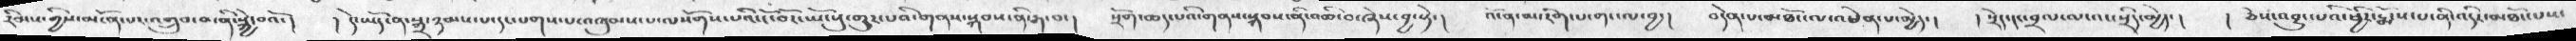རིམས་གྱིས་མངོན་པར་འགྲུབ་པ་ནི་སྐྱེ་བའོ་།  ། དེ་ཡོད་ན་སྒྲ་ཉམས་པ་དང་པགས་པ་འཁུམས་པ་ལསོགས་པའི་ངོ་བོར་ཡོངསུ་གྱུར་པའི་གནས་སྐབས་ནི་རྒ་བ་།   སྲོག་ཆད་པའི་གནས་སྐབས་ནི་འཆི་བ་ཞེས་བྱ་སྟེ་།   འོ་ན་མ་རིག་པ་གང་ལ་བྱ་།   བདེན་པ་མཐོང་ལ་འཕེན་པ་མྱེད་།   ། སྲིད་དང་བྲལ་ལ་འང་སྲིད་མྱེད་།   ཅེས་འབྱུང་པའི་ཕྱིར་སྨོས་པ་ནི་འདིར་མཐོང་པས་
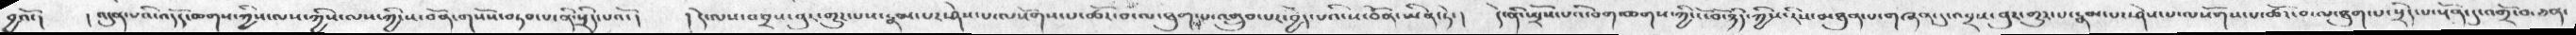བྱའོ་།   ། འདུན་པའི་འདོད་ཆགས་ཀྱིས་ལས་ཀྱིས་ལས་ཀྱི་ས་བོན་གསོས་བཏབ་པ་ནི་སྲིད་པའོ་།  ། དེ་ལས་འབྲས་བུར་གྱུར་པས་རྣམ་པར་ཤེས་པ་ལསོགས་པ་ལསོགས་པ་ཚོར་བ་ལ་ཐུགས་པ་འགྲུབ་པར་བྱེད་པའི་ས་བོན་ཡིན་ཏེ་།   དེ་ནི་ཡྲོས་པའི་པག་ཆགས་ཀྱིས་ངོ་བོ་ཉིད་ཀྱིས་རིས་མཉན་པ་གཞན་དུ་འབྲས་བུར་གྱུར་པ་རྣམ་པར་ཤེས་པ་ལསོགས་པ་ཚོར་བ་ལ་ཐུག་པ་སྲིད་པ་སྔོན་དུ་འགྲོ་བ་ཅན་
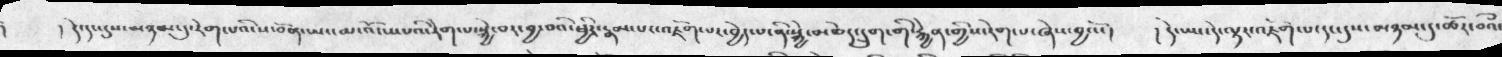།   དེ་དང་དུས་མཉམ་དུ་རེག་པའི་ས་བོན་ཡང་མ་འོངས་པའི་རེག་པ་སྐྱེ་བར་བྱ་བའི་ཕྱིར་རྣམ་པར་འཇོག་པར་བྱེད་པ་ནི་སྐྱེ་མཆེད་དྲུག་གི་རྐྱེན་གྱིས་རེག་པ་ཞེས་བྱའོ་།   ། དེ་ཡང་དེ་ལྟར་འཇིག་པ་དང་དུས་མཉམ་དུ་ཚོར་བའི་
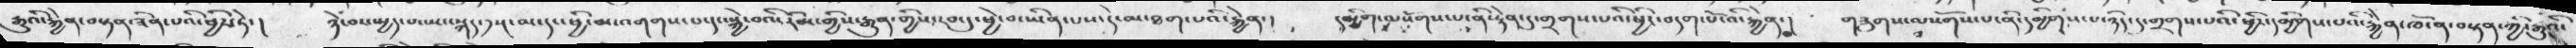རྒྱུའི་སྐྱེན་བསྟན་ཟིན་པའི་ཕྱིར་ཏེ་།   ཉེ་བར་མྱད་པ་ཡང་སྐད་༡སྔ་མ་དང་ཕྱི་མ་འགགས་པ་དང་སྐྱེ་བའི་གོ་རིམ་གྱིས་རྒྱུན་གྱིས་རབ་དུ་ཕྱེ་བ་ཡིན་པས་དེ་མ་ཐག་པའི་རྐྱེན་།  དམྱིག་ལསོགས་པ་ནི་རྟེན་དུ་གྲགས་པའི་ཕྱིར་བདག་པོ་འི་རྐྱེན་།  གཟུགས་ལསོགས་པ་ནི་དམྱིགས་པ་ཉིད་དུ་གྲགས་པའི་ཕྱིར་དམྱིགས་པའི་རྐྱེན་ཁོ་ན་བསྟན་ཀྱི་རྒྱུའི་
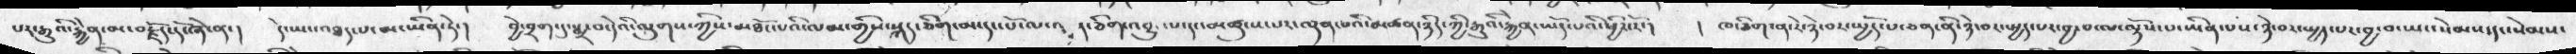པར་རྒྱུའི་རྐྱེན་མ་བརྗོད་དོ་ཞེ་ན་།   དེ་ཡང་འཐད་པ་མ་ཡིན་ཏེ་།   བྱེ་བྲག་དུ་སྨྲ་བ་དེའི་ལུགས་ཀྱིས་མཐོང་པའི་ལམ་གྱིས་སྐད་ཅིག་མ་དང་པོ་ལ་ནར་ཅིག་འབྱུང་པ་དང་མཚུངས་པར་ལྡན་པའི་མཚན་ཉིད་ཀྱི་རྒྱུའི་རྐྱེན་ཡོད་པའི་ཕྱིར་རོ་།   ། ཁ་ཅིག་ན་རེ་ཉེ་བར་ཡྱོད་པ་ཅན་ནི་ཉེ་བར་ཡྱད་པར་བྱ་བ་ལ་ལྟོས་པ་ཡིན་པས་ཉེ་བར་ཡྱད་པར་བྱ་བ་ཡང་སེམས་དང་སེམས་
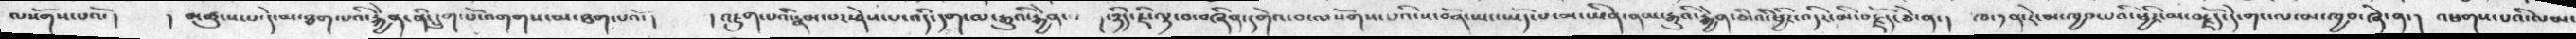ལསོགས་པའོ་།   །  མཚུངས་པ་དེ་མ་ཐག་པའི་རྐྱེན་ནི་དྲུག་པོ་འགགས་མ་ཐག་པའོ་།   ། འཇུག་པའི་རྣམ་པར་ཤེས་པ་འདི་དག་ལ་རྒྱུའི་རྐྱེན་།  ཉིད་ཇི་ལྟ་བ་བཞིན་དགེའ་བ་ལསོགས་པའི་ས་བོན་ཡང་ཡོད་པ་མ་ཡིན་ནམ་རྒྱུའི་རྐྱེན་ཅི་འི་ཕྱིར་འདིར་མི་བརྗོད་ཅེ་ན་།   ཁ་༡་ན་རེ་མ་ཁྱབ་པའི་ཕྱིར་མ་བརྗོད་དེ་གང་ལ་མ་ཁྱབ་ཞེ་ན་།  འཕགས་པའི་ལམ་
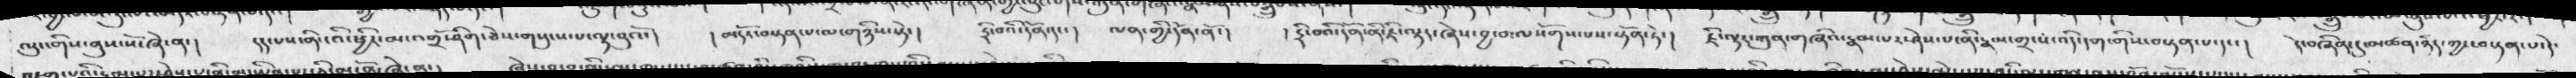ལུང་གིས་ནུས་སོ་ཞེ་ན་།   དད་པས་ནི་ངའི་ཕྱིར་མ་འགྲོ་ཤིག་ཅེས་གསུངས་པ་ལྟ་བུའོ་།   ། མདོར་བསྟན་པ་ལ་གཉིས་སྟེ་།   དྲི་བའི་དོན་དང་།   ལན་གྱི་དོན་ནོ་།   ། དྲི་བའི་དོན་ནི་ཇི་ལྟར་ཞེས་བྱ་བ་ལསོགས་པས་སྟོན་ཏེ་།   ཇི་ལྟར་ཀུན་གཞིའ་རྣམ་པར་ཤེས་པ་ནི་རྣམ་གྲངས་འདི་དག་གིས་བསྟན་པ་དང་།   དེ་བཞིན་དུ་མཚན་ཉིད་ཀྱང་བསྟན་པ་དེ་
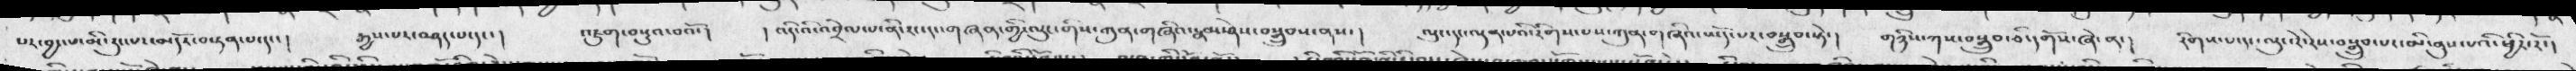པར་བྱ་པ་མི་རུང་པ་མདོར་བསྟན་པ་དང་།   རྒྱས་པར་བཤད་པ་དང་།    འཇུག་བསྡུའ་བའོ་།   །  འདི་འི་འབྲེལ་པ་ནི་རང་དང་གཞན་གྱི་ལུང་གིས་ཀུན་གཞིའ་རྣམ་ཤེས་བསྒྲུབ་ནས་།   ལུང་དང་ལྡན་པའི་རིགས་པས་ཀུན་གཞིའ་ཡོད་པར་བསྒྲུབ་པར་སྟེ་།   གཉིས་ཀས་བསྒྲུབ་ཅི་དགོས་ཞེ་ན་།  རིགས་པ་དང་ལུང་རེ་རེས་བསྒྲུབ་པར་མི་ནུས་པའི་ཕྱིར་རོ་།
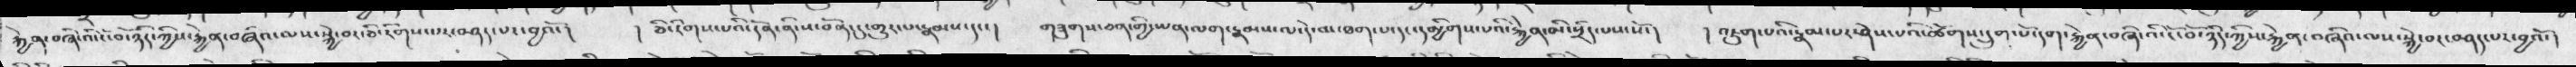སྐྱེན་བཞི་འི་ངོ་བོ་ཉིད་ཀྱིས་རྐྱེན་བཞིའ་ལས་སྐྱེ་བར་ཅི་རིགས་པར་བཤད་པར་བྱའོ་།  ། ཅི་རིགས་པའི་དོན་ནི་ས་བོན་དུ་གྱུར་པ་རྣམས་དང་།   གཟུགས་ཅན་གྱི་ཡན་ལག་རྣམས་ལ་དེ་མ་ཐག་པ་དང་དམྱིགས་པའི་རྐྱེན་མི་སྲིད་པས་སོ་།  ། འཇུག་པའི་རྣམ་པར་ཤེས་པའི་ཚོགས་དྲུག་པོ་དག་རྐྱེན་བཞིའི་ལས་སྐྱེ་བར་བཤད་པར་བྱའོ་།
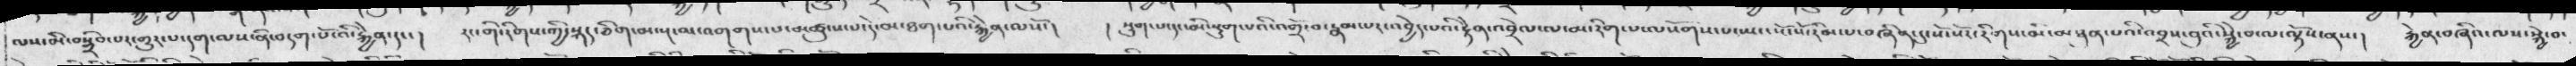ལས་མི་བསྒྲིབ་པར་གྱུར་པ་དག་ལས་ནི་བདག་པོ་འི་རྐྱེན་དང་།   རང་གི་རིགས་གྱི་སྐད་ཅིག་མ་སྔa་མ་འགགས་པ་མཚུངས་པ་དེ་མ་ཐག་པའི་རྐྱེན་ལསོ་།  །  སྡུག་པ་དང་མི་སྡུག་པའི་འགྲོ་བ་རྣམ་པར་འབྱེད་པའི་རྟེན་འབྲེལ་ལ་མ་རིག་པ་ལསོགས་ཡང་སོ་སོ་རིམ་པ་བཞིན་དུ་སོ་སོར་རིགས་མི་མཐུན་པའི་འབྲས་བུའི་སྐྱེ་བ་ལ་ལྟལོས་ནས་།  རྐྱེན་བཞིའ་ལས་སྐྱེ་བ་
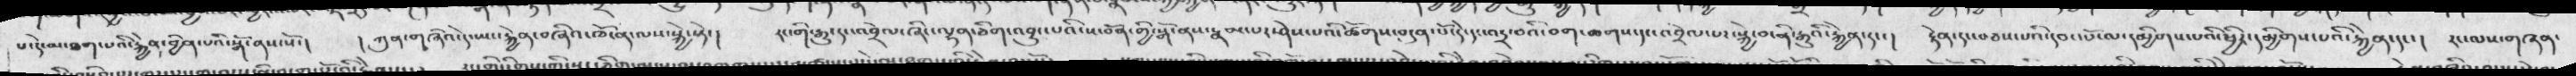པ་དེ་མ་ཐག་པའི་རྐྱེན་བྱིན་པའི་སྒོ་ནས་སོ་།  ། ཀུན་གཞིའ་དེ་ཡང་རྐྱེན་བཞིའ་ཆོས་ལས་སྐྱེ་སྟེ་།  རང་གི་རྒྱུད་དང་འབྲེལ་ཞིང་ལྷན་ཅིག་འབྱུང་པའི་ས་བོན་གྱི་སྒོ་ནས་རྣམ་པར་ཤེས་པའི་ཚོགས་བདུན་པོ་དེ་དང་འདྲ་བའི་བག་ཆགས་དང་འབྲེལ་པར་སྐྱེ་བ་ནི་རྒྱུའི་རྐྱེན་དང་།   རྟེན་དང་བཅས་པའི་དབང་པོ་ལ་དམྱིགས་པའི་ཕྱིར་དམྱིགས་པའི་རྐྱེན་དང་།  རང་ལས་གཞན་
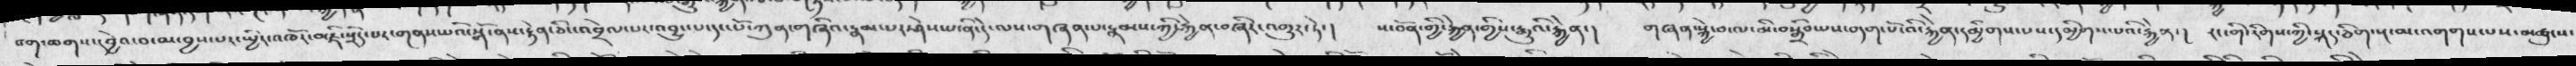བག་ཆགས་དབྱེའ་བ་མ་བྱས་པར་ཡྱིར་འཁོར་བ་ཇི་སྲིད་པར་གནས་པའི་སྒོ་ནས་རྟེན་ཅིང་འབྲེལ་པར་འབྱུང་པ་དང་པོ་ཀུན་གཞིའ་རྣམ་པར་ཤེས་པ་ནི་དེ་ལས་གཞན་པ་རྣམ་པར་ཤེས་པ་ནི་དེ་ལས་གཞན་པ་རྣམས་ཀྱི་རྐྱེན་བཞིར་འགྱུར་ཏེ་།  ས་བོན་གྱི་རྐྱེན་གྱིས་རྒྱུའི་རྐྱེན་།  གཞན་སྐྱེ་བ་ལ་མི་བསྒྲིབ་པས་བདག་པོ་འི་རྐྱེན་དམྱིགས་པས་རྐྱེན་།   རང་གི་རིགས་ཀྱི་སྐད་ཅིག་སྔ་མ་འགགས་པས་མཚུངས་
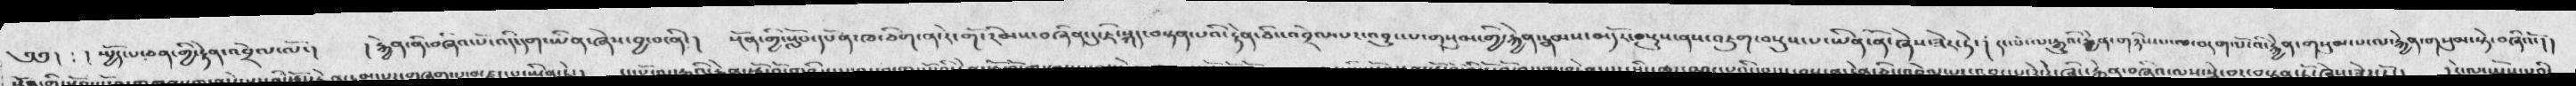༅༅།  ༴  ། ཡྱོད་པ་ཅན་གྱི་རྟེན་འབྲེལ་ལོ་།  ། རྐྱེན་ནི་བཞིའ་པོ་འདི་དག་ཡིན་ཞེས་བྱ་བ་ནི་།   སྔོན་གྱི་སློབ་དཔོན་ཁ་ཅིག་ན་རེ་གོ་རིམས་མཞིན་དུ་ཇི་སསྐད་བསྟན་པའི་རྟེན་ཅིང་འབྲེལ་པར་འབྱུང་པ་གསུམ་གྱི་རྐྱེན་རྣམས་མདོར་བསྡུས་ནས་འཇུག་བསྡུས་པ་ཡིན་ནོ་ཞེས་ཟེར་ཏེ་།  དང་པོ་ལ་རྒྱུའི་རྐྱེན་གཉིས་པ་ལ་བདག་པོ་འི་རྐྱེན་གསུམ་པ་ལ་རྐྱེན་གསུམ་སྟེ་བཞིའོ་།།
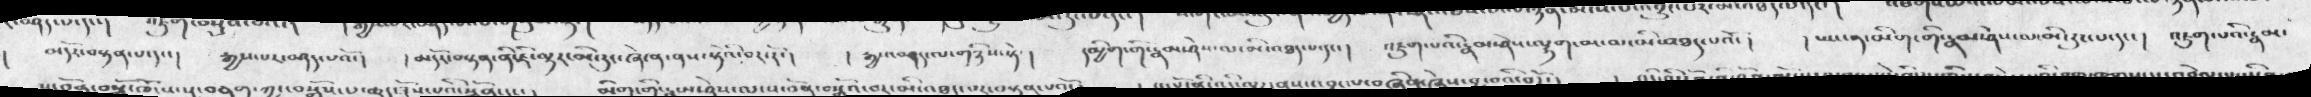མདོར་བསྟན་པ་དང་།    རྒྱས་པར་བཤད་པའོ་།    ། མདོར་བསྟན་ནི་ཇི་ལྟར་མི་རུང་ཞེ་ན་ནས་སྡེའི་བར་རོ་།   ། རྒྱས་བཤད་ལ་གཉིས་སྟེ་།    དམྱིག་གི་རྣམ་ཤེས་ལ་མི་འཐད་པ་དང་།   འཇུག་པའི་རྣམ་ཤེས་ལྷག་མ་མ་མི་འཐད་པའོ་།    ཡང་ན་མིག་གི་རྣམ་ཤེས་ལ་མི་རུང་པ་དང་།   འཇུག་པའི་རྣམ་
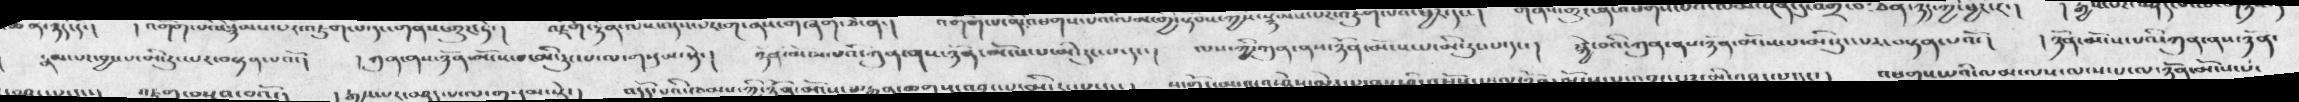རྣམ་པར་བྱས་པ་མི་རུང་པར་བསྟན་པའོ་།  ། ཀུན་ནས་ཉོན་མོངས་པ་མི་རུང་པ་ལ་གསུམ་སྟེ་།  ཉོན་མོངས་པའི་ཀུན་ནས་ཉོན་མོངས་པ་མི་རུང་པ་དང་།  ལས་ཀྱི་ཀུན་ནས་ཉོན་མོངས་པ་མི་རུང་པ་དང་།  སྐྱེ་བའི་ཀུན་ནས་ཉོན་མོངས་པ་མི་རུང་པར་བསྟན་པའོ་།   ། ཉོན་མོངས་པའི་ཀུན་ནས་ཉོན་
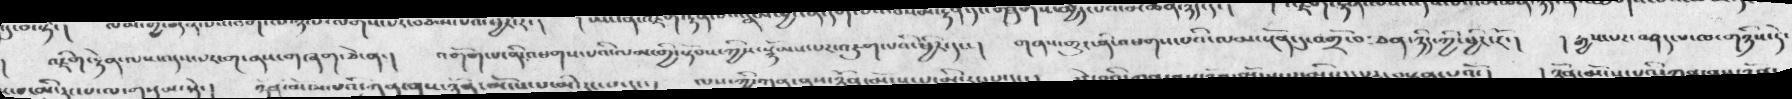།     འཇིག་རྟེན་ལས་འདས་པར་ག་ནས་གཞག་ཅེ་ན་།   འགོག་པ་ནི་འཕགས་པའི་ལམ་གྱི་སྟོབས་ཀྱིས་སྙོམས་པར་འཇུག་པའི་ཕྱིར་དང་།  གནས་གྱུར་ནི་འཕགས་པའི་ལམ་སྔོན་དུ་འགྲོ་བ༴ཅན་ཉིད་ཀྱི་ཕྱིར་རོ་།  ། རྒྱས་པར་བཤད་པ་ལ་གཉིས་ཏེ་
